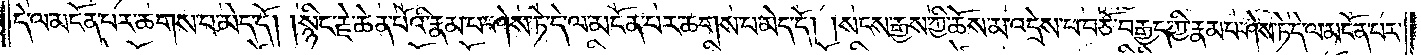དེ་ལ་མངོན་པར་ཆགས་པ་མེད་དོ། །སྙིང་རྗེ་ཆེན་པོའི་རྣམ་པ་ཤེས་ཏེ་དེ་ལ་མངོན་པར་ཆགས་པ་མེད་དོ། །སངས་རྒྱས་ཀྱི་ཆོས་མ་འདྲེས་པ་བཅོ་བརྒྱད་ཀྱི་རྣམ་པ་ཤེས་ཏེ་དེ་ལ་མངོན་པར་
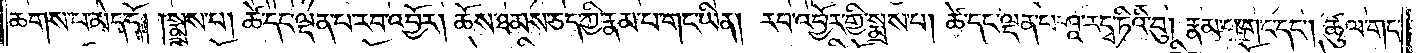ཆགས་པ་མེད་དོ། །སྨྲས་པ། ཚེ་དང་ལྡན་པ་རབ་འབྱོར། ཆོས་ཐམས་ཅད་ཀྱི་རྣམ་པ་གང་ཡིན། རབ་འབྱོར་གྱིས་སྨྲས་པ། ཚེ་དང་ལྡན་པ་ཤཱ་ར་དྭ་ཏིའི་བུ། རྣམ་པ་གང་དང༌། ཚུལ་གང་
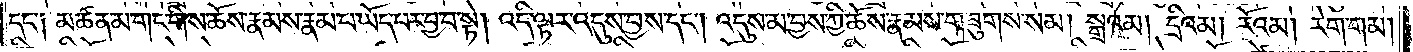དང༌། མཚན་མ་གང་གིས་ཆོས་རྣམས་རྣམ་པ་ཡོད་པར་བྱ་བ་སྟེ། འདི་ལྟར་འདུས་བྱས་དང༌། འདུས་མ་བྱས་ཀྱི་ཆོས་རྣམས་གཟུགས་སམ། སྒྲའམ། དྲིའམ། རོའམ། རེག་གམ།
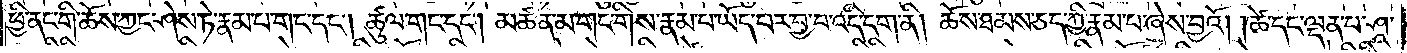ཕྱི་ནང་གི་ཆོས་ཀྱང་ཤེས་ཏེ་རྣམ་པ་གང་དང༌། ཚུལ་གང་དང༌། མཚན་མ་གང་གིས་རྣམ་པ་ཡོད་པར་བྱ་བ་འདི་དག་ནི་ཆོས་ཐམས་ཅད་ཀྱི་རྣམ་པ་ཞེས་བྱའོ། །ཚེ་དང་ལྡན་པ་ཤཱ་
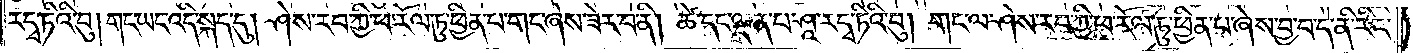ར་དྭ་ཏིའི་བུ། གང་ཡང་འདི་སྐད་དུ། ཤེས་རབ་ཀྱི་ཕ་རོལ་ཏུ་ཕྱིན་པ་གང་ཞེས་ཟེར་བ་ནི། ཚེ་དང་ལྡན་པ་ཤཱ་ར་དྭ་ཏིའི་བུ། གང་ལ་ཤེས་རབ་ཀྱི་ཕ་རོལ་ཏུ་ཕྱིན་པ་ཞེས་བྱ་བ་དེ་ནི་རིང་
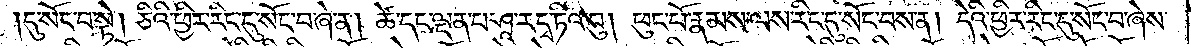དུ་སོང་བ་སྟེ། ཅིའི་ཕྱིར་རིང་དུ་སོང་བ་ཞེ་ན། ཚེ་དང་ལྡན་པ་ཤཱ་ར་དྭ་ཏིའི་བུ། ཕུང་པོ་རྣམས་ལས་རིང་དུ་སོང་བས་ན། དེའི་ཕྱིར་རིང་དུ་སོང་བ་ཞེས་
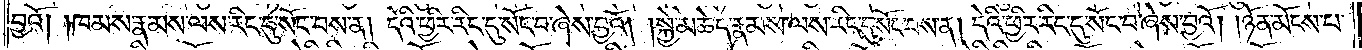བྱའོ། །ཁམས་རྣམས་ལས་རིང་དུ་སོང་བས་ན། དེའི་ཕྱིར་རིང་དུ་སོང་བ་ཞེས་བྱའོ། །སྐྱེ་མཆེད་རྣམས་ལས་རིང་དུ་སོང་བས་ན། དེའི་ཕྱིར་རིང་དུ་སོང་བ་ཞེས་བྱའོ། །ཉོན་མོངས་པ་
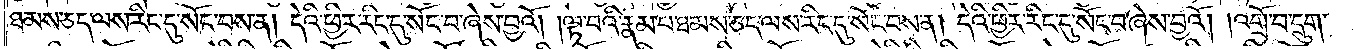ཐམས་ཅད་ལས་རིང་དུ་སོང་བས་ན། དེའི་ཕྱིར་རིང་དུ་སོང་བ་ཞེས་བྱའོ། །ལྟ་བའི་རྣམ་པ་ཐམས་ཅད་ལས་རིང་དུ་སོང་བས་ན་དེའི་ཕྱིར་རིང་དུ་སོང་བ་ཞེས་བྱའོ། །འགྲོ་བ་དྲུག་
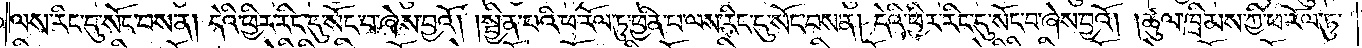ལས་རིང་དུ་སོང་བས་ན། དེའི་ཕྱིར་རིང་དུ་སོང་བ་ཞེས་བྱའོ། ། སྦྱིན་པའི་ཕ་རོལ་ཏུ་ཕྱིན་པ་ལས་རིང་དུ་སོང་བས་ན། དེའི་ཕྱིར་རིང་དུ་སོང་བ་ཞེས་བྱའོ། །ཚུལ་ཁྲིམས་ཀྱི་ཕ་རོལ་ཏུ་
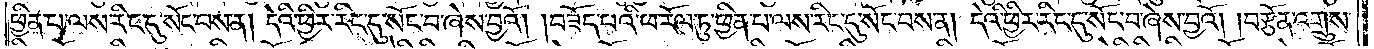ཕྱིན་པ་ལས་རིང་དུ་སོང་བས་ན། དེའི་ཕྱིར་རིང་དུ་སོང་བ་ཞེས་བྱའོ། །བཟོད་པའི་ཕ་རོལ་ཏུ་ཕྱིན་པ་ལས་རིང་དུ་སོང་བས་ན། དེའི་ཕྱིར་རིང་དུ་སོང་བ་ཞེས་བྱའོ། །བརྩོན་འགྲུས་
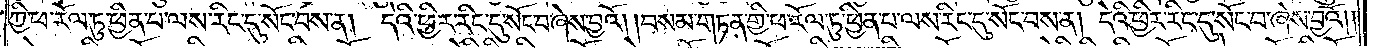ཀྱི་ཕ་རོལ་ཏུ་ཕྱིན་པ་ལས་རིང་དུ་སོང་བས་ན། དེའི་ཕྱིར་རིང་དུ་སོང་བ་ཞེས་བྱའོ། །བསམ་གཏན་གྱི་ཕ་རོལ་ཏུ་ཕྱིན་པ་ལས་རིང་དུ་སོང་བས་ན། དེའི་ཕྱིར་རིང་དུ་སོང་བ་ཞེས་བྱའོ། །
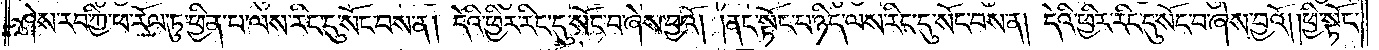ཤེས་རབ་ཀྱི་ཕ་རོལ་ཏུ་ཕྱིན་པ་ལས་རིང་དུ་སོང་བས་ན། དེའི་ཕྱིར་རིང་དུ་སོང་བ་ཞེས་བྱའོ། །ནང་སྟོང་པ་ཉིད་ལས་རིང་དུ་སོང་བས་ན། དེའི་ཕྱིར་རིང་དུ་སོང་བ་ཞེས་བྱའོ། །ཕྱི་སྟོང་
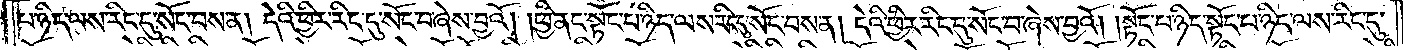པ་ཉིད་ལས་རིང་དུ་སོང་བས་ན། དེའི་ཕྱིར་རིང་དུ་སོང་བ་ཞེས་བྱའོ། །ཕྱི་ནང་སྟོང་པ་ཉིད་ལས་རིང་དུ་སོང་བས་ན། དེའི་ཕྱིར་རིང་དུ་སོང་བ་ཞེས་བྱའོ། །སྟོང་པ་ཉིད་སྟོང་པ་ཉིད་ལས་རིང་དུ་
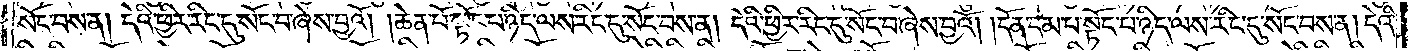སོང་བས་ན། དེའི་ཕྱིར་རིང་དུ་སོང་བ་ཞེས་བྱའོ། །ཆེན་པོ་སྟོང་པ་ཉིད་ལས་རིང་དུ་སོང་བས་ན། དེའི་ཕྱིར་རིང་དུ་སོང་བ་ཞེས་བྱའོ། །དོན་དམ་པ་སྟོང་པ་ཉིད་ལས་རིང་དུ་སོང་བས་ན། དེའི་
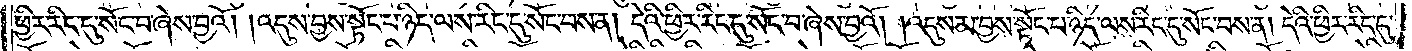ཕྱིར་རིང་དུ་སོང་བ་ཞེས་བྱའོ། །འདུས་བྱས་སྟོང་པ་ཉིད་ལས་རིང་དུ་སོང་བས་ན། དེའི་ཕྱིར་རིང་དུ་སོང་བ་ཞེས་བྱའོ། །འདུས་མ་བྱས་སྟོང་པ་ཉིད་ལས་རིང་དུ་སོང་བས་ན། དེའི་ཕྱིར་རིང་དུ་
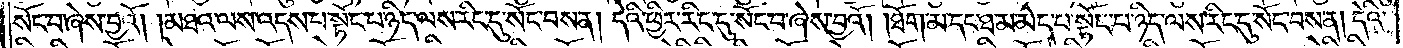སོང་བ་ཞེས་བྱའོ། །མཐའ་ལས་འདས་པ་སྟོང་པ་ཉིད་ལས་རིང་དུ་སོང་བས་ན། དེའི་ཕྱིར་རིང་དུ་སོང་བ་ཞེས་བྱའོ། ཐོག་མ་དང་ཐ་མ་མེད་པ་སྟོང་པ་ཉིད་ལས་རིང་དུ་སོང་བས་ན། དེའི་
